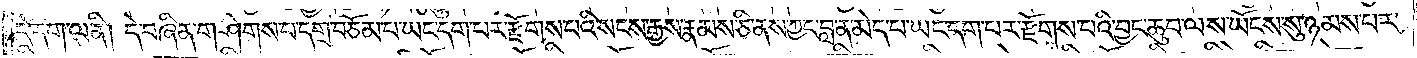དེ་དག་ལ་ནི། དེ་བཞིན་གཤེགས་པ་དགྲ་བཅོམ་པ་ཡང་དག་པར་རྫོགས་པའི་སངས་རྒྱས་རྣམས་ཅི་ནས་ཀྱང་བླ་ན་མེད་པ་ཡང་དག་པར་རྫོགས་པའི་བྱང་ཆུབ་ལས་ཡོངས་སུ་ཉམས་པར་
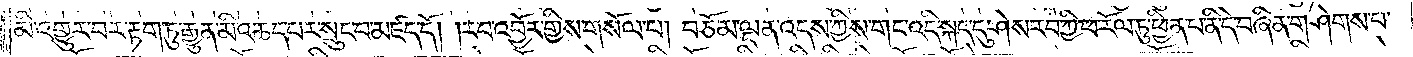མི་འགྱུར་བར་རྟག་ཏུ་རྒྱུན་མི་འཆད་པར་སྲུང་བ་མཛད་དོ། །རབ་འབྱོར་གྱིས་གསོལ་པ། བཅོམ་ལྡན་འདས་ཀྱིས་གང་འདི་སྐད་དུ་ཤེས་རབ་ཀྱི་ཕ་རོལ་ཏུ་ཕྱིན་པ་ནི་དེ་བཞིན་གཤེགས་པ་
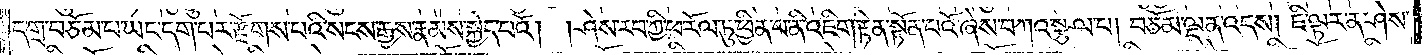དགྲ་བཅོམ་པ་ཡང་དག་པར་རྫོགས་པའི་སངས་རྒྱས་རྣམས་བསྐྱེད་པའོ། །ཤེས་རབ་ཀྱི་ཕ་རོལ་ཏུ་ཕྱིན་པ་ནི་འཇིག་རྟེན་སྟོན་པའོ་ཞེས་བཀའ་སྩལ་པ། བཅོམ་ལྡན་འདས། ཇི་ལྟར་ན་ཤེས་
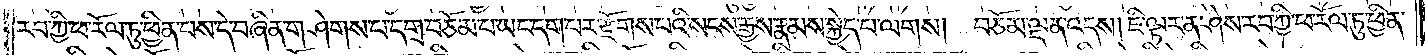རབ་ཀྱི་ཕ་རོལ་ཏུ་ཕྱིན་པས་དེ་བཞིན་གཤེགས་པ་དགྲ་བཅོམ་པ་ཡང་དག་པར་རྫོགས་པའི་སངས་རྒྱས་རྣམས་བསྐྱེད་པ་ལགས། བཅོམ་ལྡན་འདས། ཇི་ལྟར་ན་ཤེས་རབ་ཀྱི་ཕ་རོལ་ཏུ་ཕྱིན་
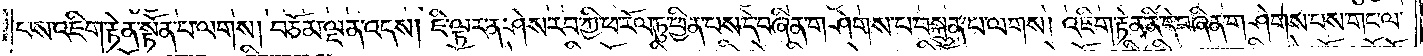པས་འཇིག་རྟེན་སྟོན་པ་ལགས། བཅོམ་ལྡན་འདས། ཇི་ལྟར་ན་ཤེས་རབ་ཀྱི་ཕ་རོལ་ཏུ་ཕྱིན་པས་དེ་བཞིན་གཤེགས་པ་བསྐྲུན་པ་ལགས། འཇིག་རྟེན་ནི་དེ་བཞིན་གཤེགས་པས་གང་ལ་
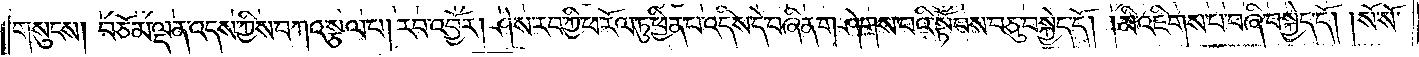གསུངས། བཅོམ་ལྡན་འདས་ཀྱིས་བཀའ་སྩལ་བ། རབ་འབྱོར། ཤེས་རབ་ཀྱི་ཕ་རོལ་ཏུ་ཕྱིན་པ་འདི་སྡེ་བཞིན་གཤེགས་པའི་སྟོབས་བཅུ་བསྐྱེད་དོ། །མི་འཇིགས་པ་བཞི་བསྐྱེད་དོ། །སོ་སོ་
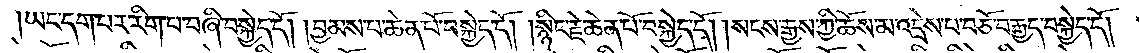ཡང་དག་པར་རིག་པ་བཞི་བསྐྱེད་དོ། །བྱམས་པ་ཆེན་པོ་བསྐྱེད་དོ། །སྙིང་རྗེ་ཆེན་པོ་བསྐྱེད་དོ། །སངས་རྒྱས་ཀྱི་ཆོས་མ་འདྲེས་པ་བཅོ་བརྒྱད་བསྐྱེད་དོ། །
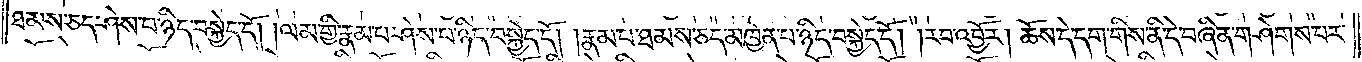ཐམས་ཅད་ཤེས་པ་ཉིད་བསྐྱེད་དོ། །ལམ་གྱི་རྣམ་པ་ཤེས་པ་ཉིད་བསྐྱེད་དོ། །རྣམ་པ་ཐམས་ཅད་མཁྱེན་པ་ཉིད་བསྐྱེད་དོ། །རབ་འབྱོར། ཆོས་དེ་དག་གིས་ནི་དེ་བཞིན་གཤེགས་པར་
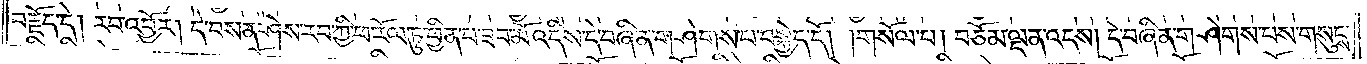བརྗོད་དེ། རབ་འབྱོར། དེ་བས་རྒ་ཤེས་རབ་ཀྱི་ཕ་རོལ་ཏུ་ཕྱིན་པ་ཟབ་མོ་འདིས་དེ་བཞིན་གཤེགས་པ་བསྐྱེད་དོ། །གསོལ་པ། བཅོམ་ལྡན་འདས། དེ་བཞིན་གཤེགས་པས་གསུངས་
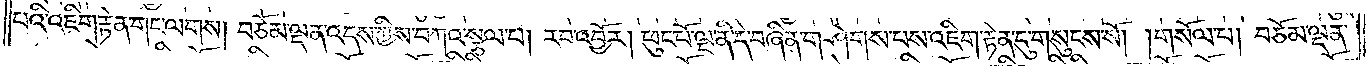པའི་འཇིག་རྟེན་གང་ལགས། །བཅོམ་ལྡན་འདས་ཀྱིས་བཀའ་སྩལ་པ། རབ་འབྱོར། ཕུང་པོ་ལྡན་དེ་བཞིན་གཤེགས་པས་འཇིག་རྟེན་དུ་གསུངས་སོ། །གསོལ་པ། བཅོམ་ལྡན་
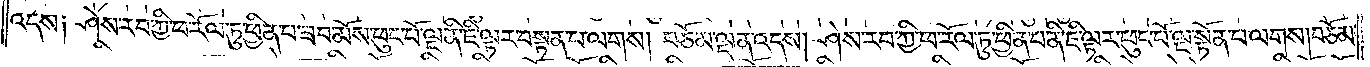འདས༑ ཤེས་རབ་ཀྱི་ཕ་རོལ་ཏུ་ཕྱིན་པ་ཟབ་མོས་ཕུང་པོ་ལྔ་ནི་ཇི་ལྟར་བསྟན་པ་ལགས། བཅོམ་ལྡན་འདས། ཤེས་རབ་ཀྱི་ཕ་རོལ་ཏུ་ཕྱིན་པ་ནི་ཇི་ལྟར་ཕུང་པོ་ལྔ་སྟོན་པ་ལགས། བཅོམ་
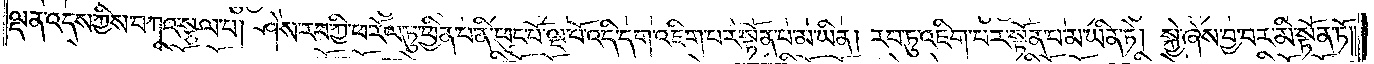ལྡན་འདས་ཀྱིས་བཀའ་སྩལ་པ། ཤེས་རབ་ཀྱི་ཕ་རོལ་ཏུ་ཕྱིན་པ་ནི་ཕུང་པོ་ལྔ་པོ་འདི་དག་འཇིག་པར་སྟོན་པ་མ་ཡིན། རབ་ཏུ་འཇིག་པར་སྟོན་པ་མ་ཡིན་ཏེ། སྐྱེ་ཞེས་བྱ་བར་མི་སྟོན་ཏོ། །
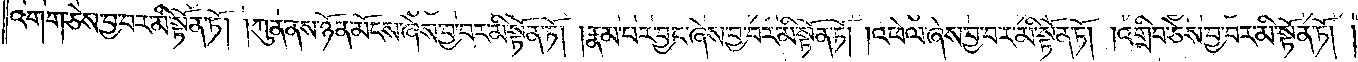འགག་ཅེས་བྱ་བར་མི་སྟོན་ཏོ། །ཀུན་ནས་ཉོན་མོངས་ཞེས་བྱ་བར་མི་སྟོན་ཏོ། །རྣམ་པར་བྱང་ཞེས་བྱ་བར་མི་སྟོན་ཏོ། །འཕེལ་ཞེས་བྱ་བར་མི་སྟོན་ཏོ། །འགྲིབ་ཅེས་བྱ་བར་མི་སྟོན་ཏོ། །
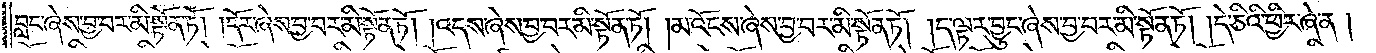བླང་ཞེས་བྱ་བར་མི་སྟོན་ཏོ། །དོར་ཞེས་བྱ་བར་མི་སྟོན་ཏོ། །འདས་ཞེས་བྱ་བར་མི་སྟོན་ཏོ། །མ་འོངས་ཞེས་བྱ་བར་མི་སྟོན་ཏོ། །ད་ལྟར་བྱུང་ཞེས་བྱ་བར་མི་སྟོན་ཏོ། །དེ་ཅིའི་ཕྱིར་ཞེ་ན།
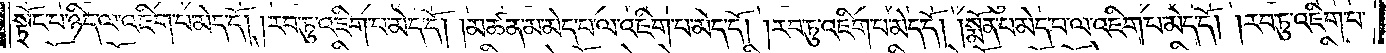སྟོང་པ་ཉིད་ལ་འཇིག་པ་མེད་དོ། རབ་ཏུ་འཇིག་པ་མེད་དོ། །མཚན་མ་མེད་པ་ལ་འཇིག་པ་མེད་དོ། །རབ་ཏུ་འཇིག་པ་མེད་དོ། །སྨོན་པ་མེད་པ་ལ་འཇིག་པ་མེད་དོ། །རབ་ཏུ་འཇིག་པ་
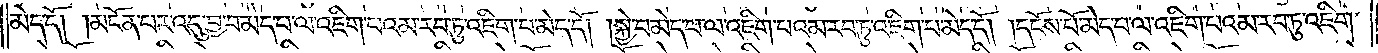མེད་དོ། །མངོན་པར་འདུ་བྱ་བ་མེད་པ་ལ་འཇིག་པའམ་རབ་ཏུ་འཇིག་པ་མེད་དོ། །སྐྱེ་བ་མེད་པ་ལ་འཇིག་པའམ་རབ་ཏུ་འཇིག་པ་མེད་དོ། །དངོས་པོ་མེད་པ་ལ་འཇིག་པའམ་རབ་ཏུ་འཇིག་
